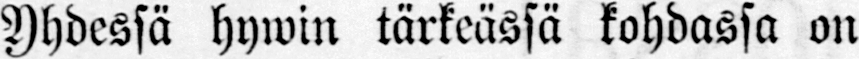Yhdessä hywin tärkeässä kohdassa on
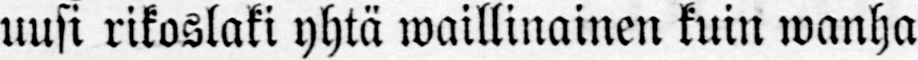uusi rikoslaki yhtä waillinainen kuin wanha
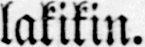lakikin.
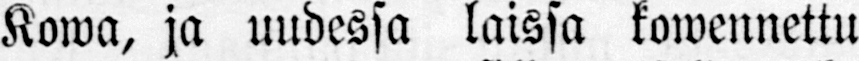Kowa, ja uudessa laissa kowennettu
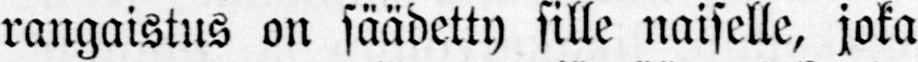rangaistus on säädetty sille naiselle, joka
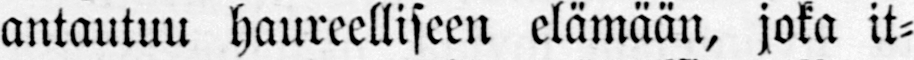antautuu haureelliseen elämään, joka it-
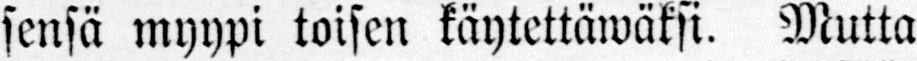sensä myypi toisen käytettäwäksi. Mutta
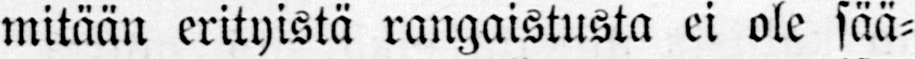mitään erityistä rangaistusta ei ole sää-
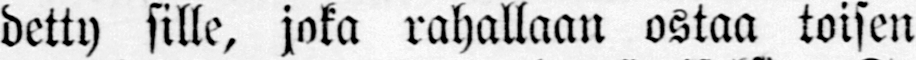detty sille, joka rahallaan ostaa toisen
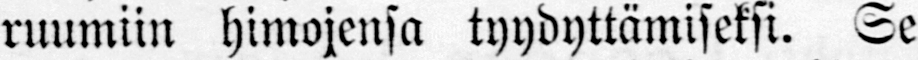ruumiin himojensa tyydyttämiseksi. Se
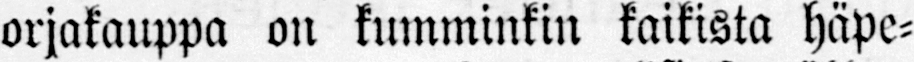orjakauppa on kumminkin kaikista häpe-
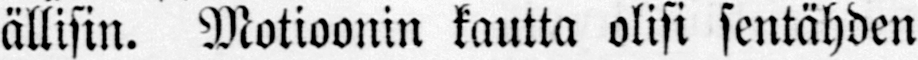ällisin. Motioonin kautta olisi sentähden
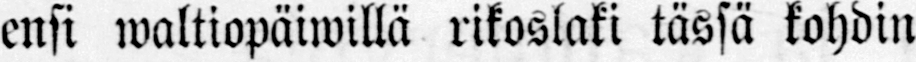ensi waltiopäiwillä rikoslaki tässä kohdin
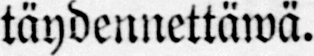täydennettäwä.
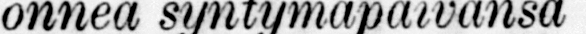Neiti Ida L:beck'ille
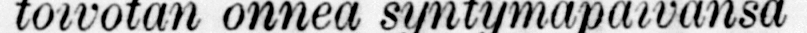toivotan onnea syntymäpäivänsä
